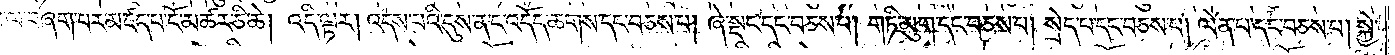པ་ལ་བཞག་པར་མཛད་པ་ངོ་མཚར་ཅི་ཆེ། འདི་ལྟར། འདས་པའི་དུས་ན་ང་འདོད་ཆགས་དང་བཅས་པ། ཞེ་སྡང་དང་བཅས་པ། གཏི་མུག་དང་བཅས་པ། སྲེད་པ་དང་བཅས་པ། ལེན་པ་དང་བཅས་པ། སྐྱེ་
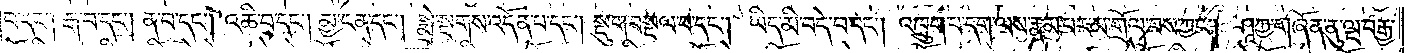བ་དང༌། རྒ་བ་དང༌། ན་བ་དང༌། འཆི་བ་དང༌། མྱ་ངན་དང༌། སྨྲེ་སྔགས་འདོན་པ་དང༌། སྡུག་བསྔལ་བ་དང༌། ཡིད་མི་བདེ་བ་དང༌། འཁྲུག་པ་དག་ལས་རྣམ་པར་མ་གྲོལ་བས་ཀྱང༌། ཤཱཀྱ་གཞོན་ནུ་ལྔ་བརྒྱ་
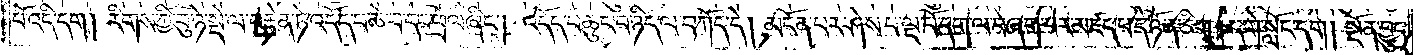པོ་འདི་དག། རིགས་ཀྱི་བུ་ཉེ་སྡེ་ལ་བརྟེན་ཏེ་འདོད་པ་ཆེ་བ་དང་ཕྲལ་ཞིང༌། འདོད་པ་ཆུང་བ་ཉིད་ལ་བཀོད་དེ། མངོན་པར་ཤེས་པ་ལྔ་པོ་དག་ལ་བཞག་པར་མཛད་པ་དེ་ཉོན་ཅིག །དགེ་སློང་དག། སྔོན་བྱུང་
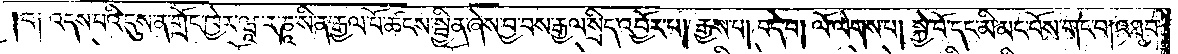བ༑ འདས་པའི་དུས་ན་གྲོང་ཁྱེར་ཝཱ་ར་ཎཱ་སི་ན་རྒྱལ་པོ་ཚངས་སྦྱིན་ཞེས་བྱ་བས་རྒྱལ་སྲིད་འབྱོར་བ། རྒྱས་པ། བདེ་བ། ལོ་ལེགས་པ། སྐྱེ་བོ་དང་མི་མང་པོས་གང་བ། འཐབ་
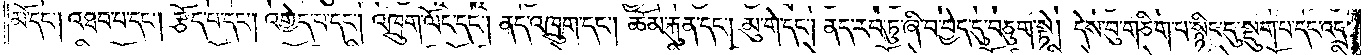མོ་དང༌། འཐབ་པ་དང༌། རྩོད་པ་དང༌། འགྱེད་པ་དང༌། འཁྲུག་ལོང་དང༌། ནད་འཁྲུག་དང༌། ཆོམ་རྐུན་དང༌། མུ་གེ་དང༌། ནད་རབ་ཏུ་ཞི་བ་བྱེད་དུ་བཅུག་སྟེ། དེས་བུ་གཅིག་པ་སྙིང་དུ་སྡུག་པ་དང་འདྲ་
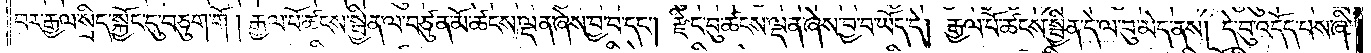བར་རྒྱལ་སྲིད་སྐྱོང་དུ་བཅུག་གོ། རྒྱལ་པོ་ཚངས་སྦྱིན་ལ་བཙུན་མོ་ཚངས་ལྡན་ཞེས་བྱ་བ་དང༌། རྫིང་བུ་ཚངས་ལྡན་ཞེས་བྱ་བ་ཡོད་དེ། རྒྱལ་པོ་ཚངས་སྦྱིན་དེ་ལ་བུ་མེད་ནས། དེ་བུ་འདོད་པས་ཞི་
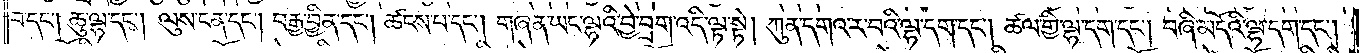བ་དང༌། ཆུ་ལྷ་དང༌། ལུས་ངན་དང༌། བརྒྱ་བྱིན་དང༌། ཚངས་པ་དང༌། གཞན་ཡང་ལྷའི་བྱེ་བྲག་འདི་ལྟ་སྟེ། ཀུན་དགའ་ར་བའི་ལྷ་དག་དང༌། ཚལ་གྱི་ལྷ་དག་དང༌། བཞི་མདོའི་ལྷ་དག་དང༌།
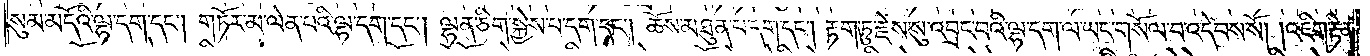སུམ་མདོའི་ལྷ་དག་དང༌། གཏོར་མ་ལེན་པའི་ལྷ་དག་དང༌། ལྷན་ཅིག་སྐྱེས་པ་དག་དང༌། ཆོས་མཐུན་པ་དག་དང༌། རྟག་ཏུ་རྗེས་སུ་འབྲང་བའི་ལྷ་དག་ལ་ཡང་གསོལ་བ་འདེབས་སོ། །འཇིག་རྟེན་
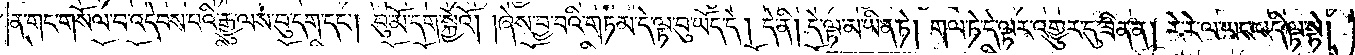ན་གང་གསོལ་བ་འདེབས་པའི་རྒྱུ་ལས་བུ་དག་དང༌། བུ་མོ་དག་སྐྱེའོ། །ཞེས་བྱ་བའི་གཏམ་དེ་ལྟ་བུ་ཡོད་དེ། དེ་ནི། དེ་ལྟ་མ་ཡིན་ཏེ། གལ་ཏེ་དེ་ལྟར་འགྱུར་དུ་ཟིན་ན། རེ་རེ་ལ་ཡང་འདི་ལྟ་སྟེ།
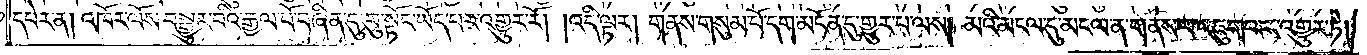དཔེར་ན། འཁོར་ལོས་བསྒྱུར་བའི་རྒྱལ་པོ་བཞིན་དུ་བུ་སྟོང་ཡོད་པར་འགྱུར་རོ། །འདི་ལྟར། གནས་གསུམ་པོ་དག་མངོན་དུ་གྱུར་པ་ལས། མའི་མངལ་དུ་མངལ་ན་གནས་པ་འཇུག་པར་འགྱུར་ཏེ།
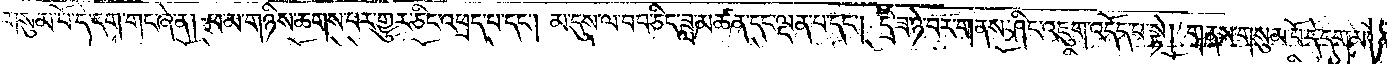གསུམ་པོ་དེ་དག་གང་ཞེ་ན། ཕ་མ་གཉིས་ཆགས་པར་གྱུར་ཅིང་འཕྲད་པ་དང༌། མ་དུས་ལ་བབ་ཅིང་ཟླ་མཚན་དང་ལྡན་པ་དང༌། དྲི་ཟ་ཉེ་བར་གནས་ཤིང་འཇུག་འདོད་པ་སྟེ། གནས་གསུམ་པོ་དེ་དག་མངོན་
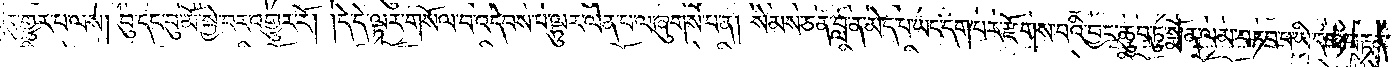དུ་གྱུར་པ་ལས། བུ་དང་བུ་མོ་སྐྱེ་བར་འགྱུར་རོ། །དེ་དེ་ལྟར་གསོལ་བ་འདེབས་པ་ལྷུར་ལེན་པ་ལ་ཞུགས་པ་ན། སེམས་ཅན་བླ་ན་མེད་པ་ཡང་དག་པར་རྫོགས་པའི་བྱང་ཆུབ་ཏུ་སྨོན་ལམ་བཏབ་པ་ཡི་དམ་བརྟན་
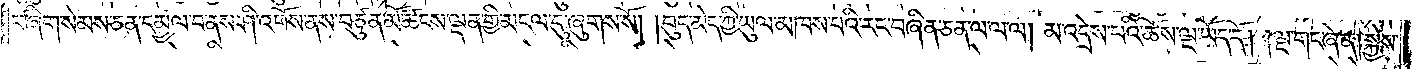པ་ཞིག་སེམས་ཅན་དམྱལ་བ་ནས་ཤི་འཕོས་ནས་བཙུན་མོ་ཚངས་ལྡན་གྱི་མངལ་དུ་ཞུགས་སོ། །བུད་མེད་ཀྱི་ཡུལ་མཁས་པའི་རང་བཞིན་ཅན་ལ་ལ་ལ། མ་འདྲེས་པའི་ཆོས་ལྔ་ཡོད་དོ། །ལྔ་གང་ཞེ་ན། སྐྱེས་
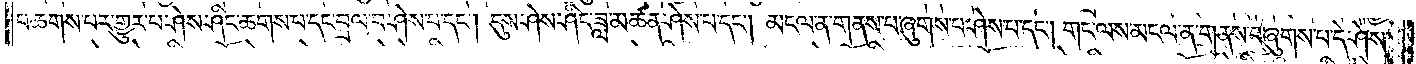པ་ཆགས་པར་གྱུར་པ་ཤེས་ཤིང་ཆགས་པ་དང་བྲལ་བ་ཤེས་པ་དང༌། དུས་ཤེས་ཤིང་ཟླ་མཚན་ཤེས་པ་དང༌། མངལ་ན་གནས་པ་ཞུགས་པ་ཤེས་པ་དང༌། གང་ལས་མངལ་ན་གནས་པ་ཞུགས་པ་དེ་ཤེས་
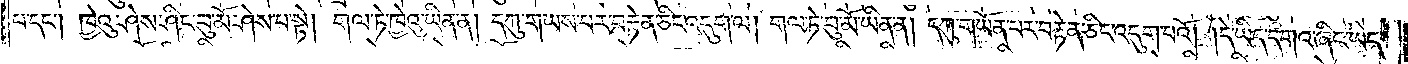པ་དང༌། ཁྱེའུ་ཤེས་ཤིང་བུ་མོ་ཤེས་པ་སྟེ། གལ་ཏེ་ཁྱེའུ་ཡིན་ན། དཀུ་གཡས་པར་བརྟེན་ཅིང་འདུག་ལ། གལ་ཏེ་བུ་མོ་ཡིན་ན། དཀུ་གཡོན་པར་བརྟེན་ཅིང་འདུག་པའོ། །དེ་ཡིད་དགའ་ཞིང་ཡིད་
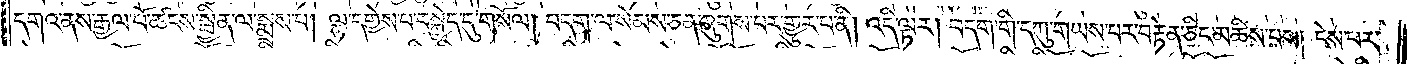དགའ་ནས་རྒྱལ་པོ་ཚངས་སྦྱིན་ལ་སྨྲས་པ། ལྷ་དགྱེས་པ་བསྐྱེད་དུ་གསོལ། བདག་ལ་སེམས་ཅན་ཞུགས་པར་གྱུར་པ་ནི། འདི་ལྟར། བདག་གི་དཀུ་གཡས་པར་བརྟེན་ཅིང་མཆིས་པས། ངེས་པར་
